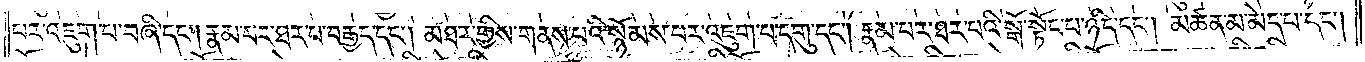པར་འཇུག་པ་བཞི་དང༌། རྣམ་པར་ཐར་པ་བརྒྱད་དང༌། མཐར་གྱིས་གནས་པའི་སྙོམས་པར་འཇུག་པ་དགུ་དང༌། རྣམ་པར་ཐར་པའི་སྒོ་སྟོང་པ་ཉིད་དང༌། མཚན་མ་མེད་པ་དང༌།
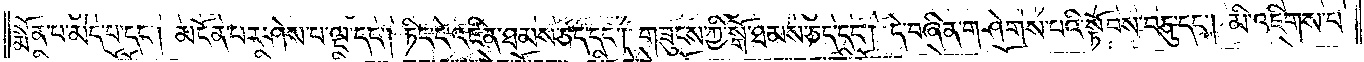སྨོན་པ་མེད་པ་དང༌། མངོན་པར་ཤེས་པ་ལྔ་དང༌། ཏིང་ངེ་འཛིན་ཐམས་ཅད་དང༌། གཟུངས་ཀྱི་སྒོ་ཐམས་ཅད་དང༌། དེ་བཞིན་གཤེགས་པའི་སྟོབས་བཅུ་དང༌། མི་འཇིགས་པ་
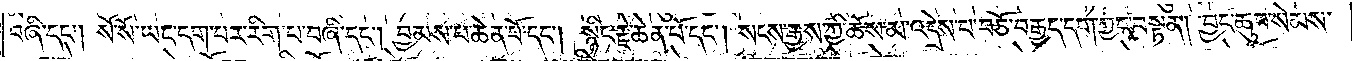བཞི་དང༌། སོ་སོ་ཡང་དག་པར་རིག་པ་བཞི་དང༌། བྱམས་པ་ཆེན་པོ་དང༌། སྙིང་རྗེ་ཆེན་པོ་དང༌། སངས་རྒྱས་ཀྱི་ཆོས་མ་འདྲེས་པ་བཅོ་བརྒྱད་དག་ཀྱང་བསྟན། བྱང་ཆུབ་སེམས་
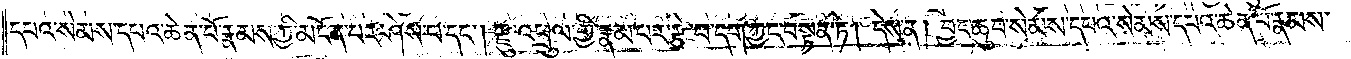དཔའ་སེམས་དཔའ་ཆེན་པོ་རྣམས་ཀྱི་མངོན་པར་ཤེས་པ་དང༌། རྫུ་འཕྲུལ་གྱི་རྣམ་པར་རྩེ་བ་དག་ཀྱང་བསྟན་ཏེ། དེས་ན། བྱང་ཆུབ་སེམས་དཔའ་སེམས་དཔའ་ཆེན་པོ་རྣམས་
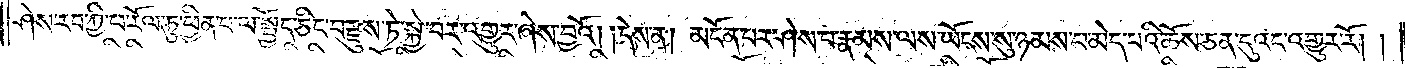ཤེས་རབ་ཀྱི་ཕ་རོལ་ཏུ་ཕྱིན་པ་ལ་སྤྱོད་ཅིང་བརྫུས་ཏེ་སྐྱེ་བར་འགྱུར་ཞེས་བྱའོ། །དེས་ན། མངོན་པར་ཤེས་པ་རྣམས་ལས་ཡོངས་སུ་ཉམས་པ་མེད་པའི་ཆོས་ཅན་དུའང་འགྱུར་རོ། །
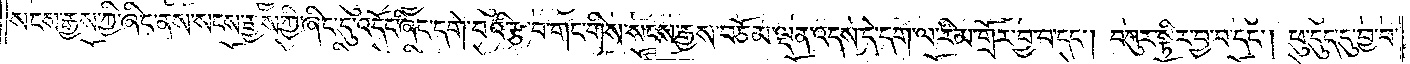སངས་རྒྱས་ཀྱི་ཞིང་ནས་སངས་རྒྱས་ཀྱི་ཞིང་དུ་འདོང་ཞིང་དགེ་བའི་རྩ་བ་གང་གིས་སངས་རྒྱས་བཅོམ་ལྡན་འདས་དེ་དག་ལ་རིམ་གྲོར་བྱ་བ་དང༌། བཀུར་སྟིར་བྱ་བ་དང༌། ཕུ་དུད་དུ་བྱ་བ་
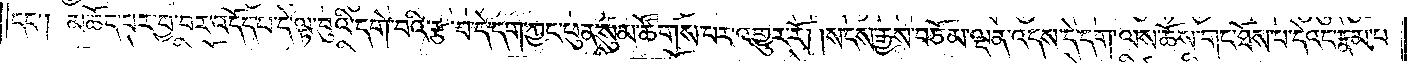དང༌། མཆོད་པར་བྱ་བར་འདོད་པ་དེ་ལྟ་བུའི་དགེ་བའི་རྩ་བ་དེ་དག་ཀྱང་ཕུན་སུམ་ཚོགས་པར་འགྱུར་རོ། །སངས་རྒྱས་བཅོམ་ལྡན་འདས་དེ་དག་ལས་ཆོས་གང་ཐོས་པ་དེའང་རྣམ་པ་
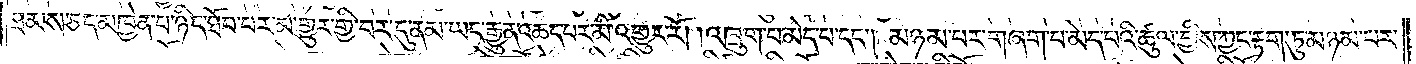ཐམས་ཅད་མཁྱེན་པ་ཉིད་ཐོབ་པར་མ་གྱུར་གྱི་བར་དུ་ནམ་ཡང་རྒྱུན་ཆད་པར་མི་འགྱུར་རོ། །འཁྲུག་པ་མེད་པ་དང༌། མཉམ་པར་གཞག་པ་མེད་པའི་ཚུལ་གྱིས་ཀྱང་རྟག་ཏུ་མཉམ་པར་
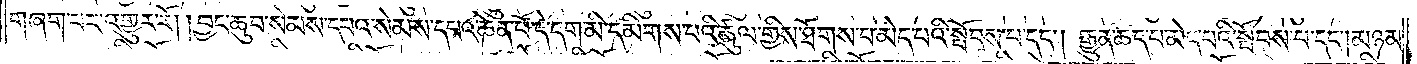གཞག་པར་འགྱུར་རོ། །བྱང་ཆུབ་སེམས་དཔའ་སེམས་དཔའ་ཆེན་པོ་དེ་དག་མི་དམིགས་པའི་ཚུལ་གྱིས་ཐོགས་པ་མེད་པའི་སྤབས་པ་དང༌། རྒྱུན་ཆད་པ་མེད་པའི་སྤོབས་པ་དང༌། མཉམ་
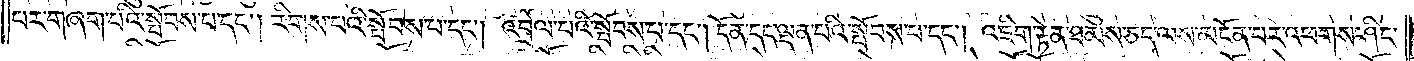པར་གཞག་པའི་སྤོབས་པ་དང༌། རིགས་པའི་སྤོབས་པ་དང༌། འབྲེལ་པའི་སྤོབས་པ་དང༌། དོན་དང་ལྡན་པའི་སྤོབས་པ་དང༌། འཇིག་རྟེན་ཐམས་ཅད་ལས་མངོན་པར་འཕགས་ཤིང་
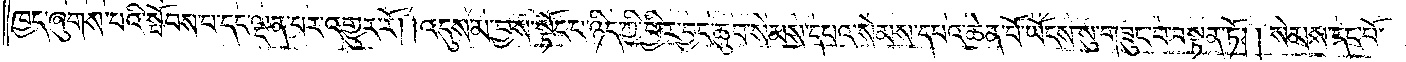ཁྱད་ཞུགས་པའི་སྤོབས་པ་དང་ལྡན་པར་འགྱུར་རོ། །འདུས་མ་བྱས་སྟོང་པ་ཉིད་ཀྱི་ཕྱིར། བྱང་ཆུབ་སེམས་དཔའ་སེམས་དཔའ་ཆེན་པོ་ཡོངས་སུ་བཟུང་བ་བསྟན་ཏོ། །སེམས་དང་པོ་
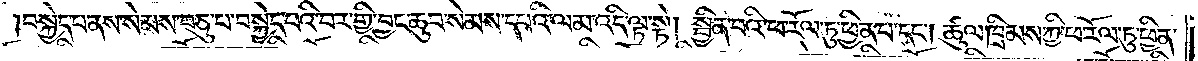བསྐྱེད་པ་ནས་སེམས་བཅུ་པ་བསྐྱེད་པའི་བར་གྱི་བྱང་ཆུབ་སེམས་དཔའི་ལམ་འདི་ལྟ་སྟེ། སྦྱིན་པའི་ཕ་རོལ་ཏུ་ཕྱིན་པ་དང༌། ཚུལ་ཁྲིམས་ཀྱི་ཕ་རོལ་ཏུ་ཕྱིན་
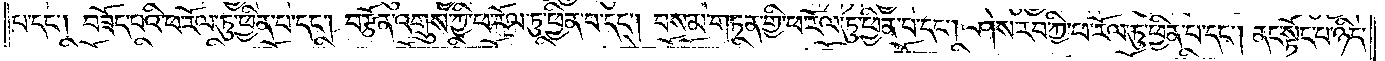པ་དང༌། བཟོད་པའི་ཕ་རོལ་ཏུ་ཕྱིན་པ་དང༌། བརྩོན་འགྲུས་ཀྱི་ཕ་རོལ་ཏུ་ཕྱིན་པ་དང༌། བསམ་གཏན་གྱི་ཕ་རོལ་ཏུ་ཕྱིན་པ་དང༌། ཤེས་རབ་ཀྱི་ཕ་རོལ་ཏུ་ཕྱིན་པ་དང༌། ནང་སྟོང་པ་ཉིད་
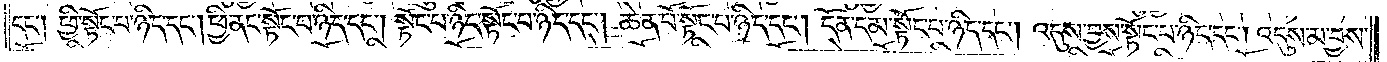དང༌། ཕྱི་སྟོང་པ་ཉིད་དང༌། ཕྱི་ནང་སྟོང་པ་ཉིད་དང༌། སྟོང་པ་ཉིད་སྟོང་པ་ཉིད་དང༌། ཆེན་པོ་སྟོང་པ་ཉིད་དང༌། དོན་དམ་པ་སྟོང་པ་ཉིད་དང༌། འདུས་བྱས་སྟོང་པ་ཉིད་དང༌། འདུས་མ་བྱས་
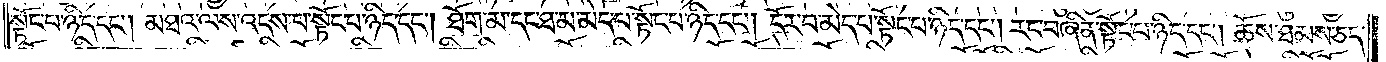སྟོང་པ་ཉིད་དང༌། མཐའ་ལས་འདས་པ་སྟོང་པ་ཉིད་དང༌། ཐོག་མ་དང་ཐ་མ་མེད་པ་སྟོང་པ་ཉིད་དང༌། དོར་བ་མེད་པ་སྟོང་པ་ཉིད་དང༌། རང་བཞིན་སྟོང་པ་ཉིད་དང༌། ཆོས་ཐམས་ཅད་
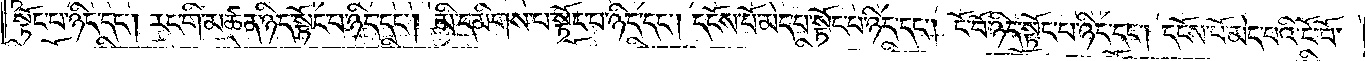སྟོང་པ་ཉིད་དང༌། རང་གི་མཚན་ཉིད་སྟོང་པ་ཉིད་དང༌། མི་དམིགས་པ་སྟོང་པ་ཉིད་དང༌། དངོས་པོ་མེད་པ་སྟོང་པ་ཉིད་དང༌། ངོ་བོ་ཉིད་སྟོང་པ་ཉིད་དང༌། དངོས་པོ་མེད་པའི་ངོ་བོ་
